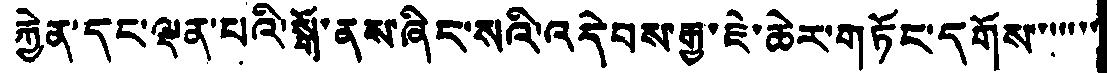རྐྱེན་དང་ལྡན་པའི་སྒོ་ནས་ཞིང་སའི་འདེབས་རྒྱ་ཇེ་ཆེར་གཏོང་དགོས་་་་་་་
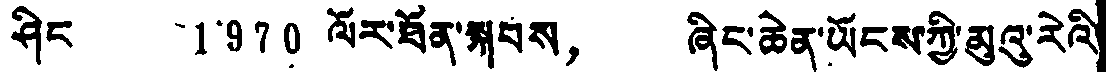ཤིང 1970 ལོར་ཐོན་སྐབས， ཞིང་ཆེན་ཡོངས་ཀྱི་མུའུ་རེའི
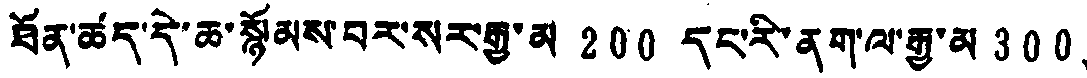ཐོན་ཚད་དེ་ཆ་སྙོམས་བར་སར་རྒྱ་མ 200 དང་རི་ནག་ལ་རྒྱ་མ 300、
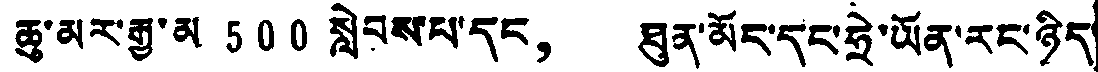ཆུ་མར་རྒྱ་མ 500 སླེབས་པ་དང， ཐུན་མོང་དང་ཧྲེ་ཡོན་རང་ཉིད
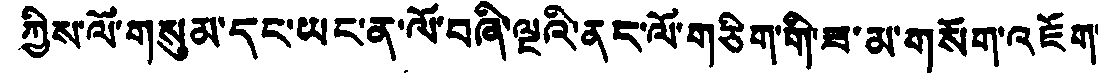ཀྱིས་ལོ་གསུམ་དང་ཡང་ན་ལོ་བཞི་ལྔའི་ནང་ལོ་གཅིག་གི་ཟ་མ་གསོག་འཇོག་
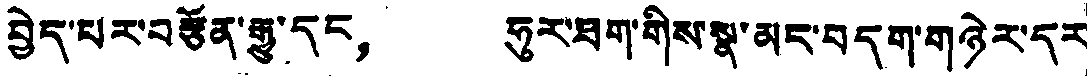བྱེད་པར་བརྩོན་རྒྱུ་དང， ཧུར་ཐག་གིས་སྣ་མར་བདག་གཉེར་དར་
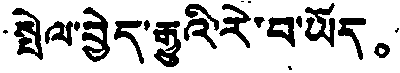སྤེལ་བྱེད་རྒྱུའི་རེ་བ་ཡོད。
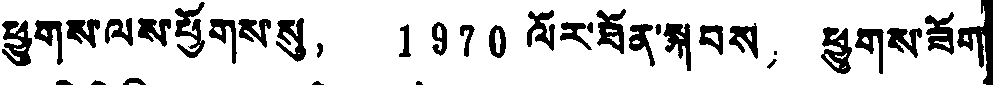ཕྱུགས་ལས་ཕྱོགས་སུ 1970 ལོར་ཐོན་སྐབས， ཕྱུགས་ཟོག
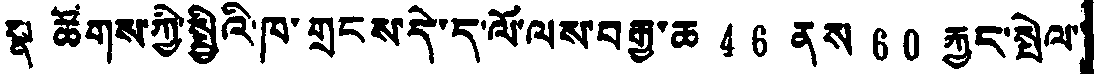སྣ ཚོགས་ཀྱི་སྤྱིའི་ཁ་གྲངས་དེ་ད་ལོ་ལས་བརྒྱ་ཆ 46 ནས 60 རྐྱང་སྤེལ་
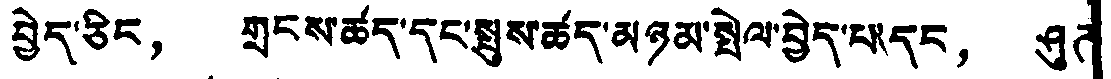བྱེད་ཅིང， གྲངས་ཚད་དང་སྤུས་ཚད་མཉམ་སྤེལ་བྱེད་པ་དང， ཤུཊ
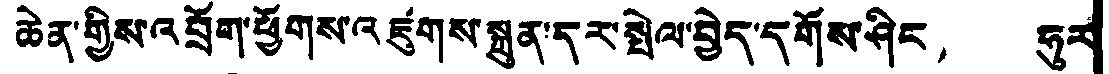ཆེན་གྱིས་འབྲོག་ཕྱོགས་འཛུགས་སྐྲུན་དར་སྤེལ་བྱེད་དགོས་ཤིང， ཧུར་
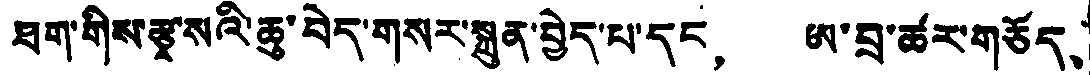ཐག་གིས་རྩྭ་སའི་ཆུ་བེད་གསར་སྐྲུན་བྱེད་པ་དང， ཨ་བྲ་ཚར་གཅོད、
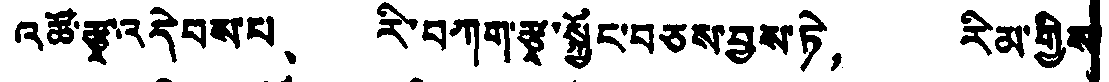འཚོ་རྩྭ་འདེབས་པ、 རི་བཀག་རྩྭ་སྐྱོང་བཅས་བྱས་ཏེ， རིམ་གྱིས་
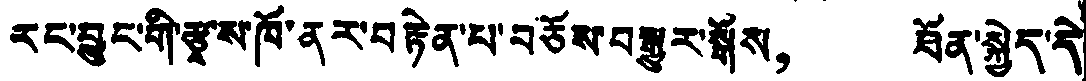རང་བྱུང་གི་རྩྭ་ས་ཁོ་ནར་བརྟེན་པ་བཅོས་བསྒྱུར་སྒོས， ཐོན་སྐྱེད་དེ
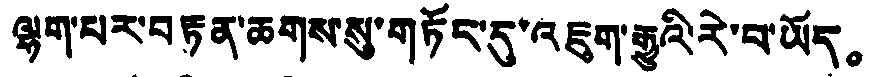ལྷག་པར་བརྟན་ཆགས་སུ་གཏོད་དུ་འཇུག་རྒྱུའི་རེ་བ་ཡོད。
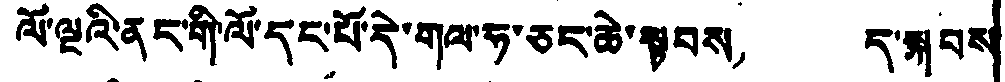ལོ་ལྔའི་ནང་གི་ལོ་དང་པོ་དེ་གལ་ཧ་ཅང་ཆེ་སྟབས， ད་སྐབས
